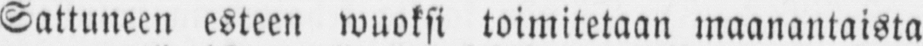Sattuneen esteen wuoksi toimitetaan maanantaista
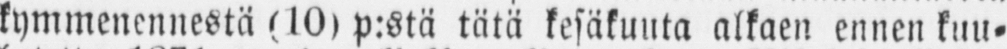kymmenennestä (10) p:stä tätä kesäkuuta alkaen ennen kuu-
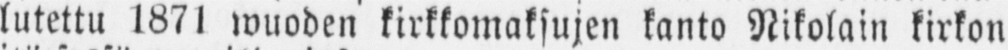lutettu 1871 wuoden kirkkomaksujen kanto Nikolain kirkon
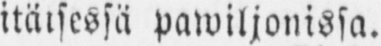itäisessä pawiljonissa.
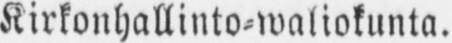Kirkonhallinto-waliokunta.
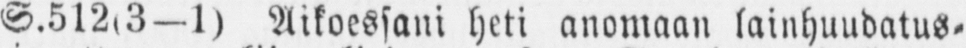S.512(3—1) Aikoessani heti anomaan lainhuudatus-
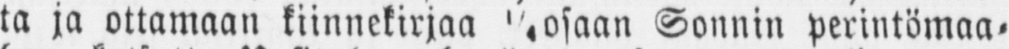ta ja ottamaan kiinnekirjaa ¼osaan Sonnin perintömaa-
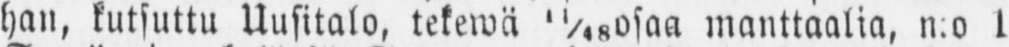han, kutsuttu Uusitalo, tekewä 11/48osaa manttaalia, n:o 1
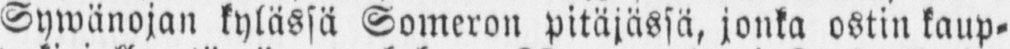Sywänojan kylässä Someron pitäjässä, jonka ostin kaup-
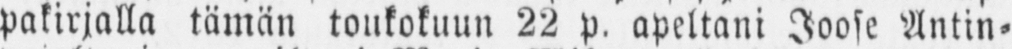pakirjalla tämän toukokuun 22 p. apeltani Joose Antin-
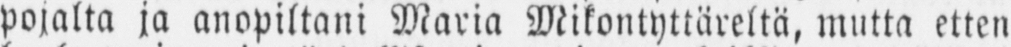pojalta ja anopiltani Maria Mikontyttäreltä, mutta etten
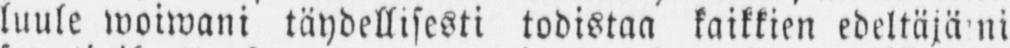luule woiwani täydellisesti todistaa kaikkien edeltäjä’ni
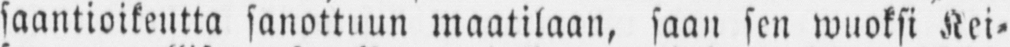saantioikeutta sanottuun maatilaan, saan sen wuoksi Kei-
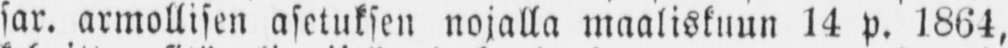sar. armollisen asetuksen nojalla maaliskuun 14 p. 1864,
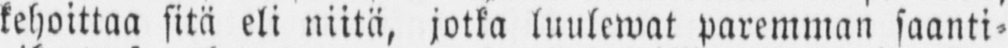kehoittaa sitä eli niitä, jotka luulewat paremman saanti-
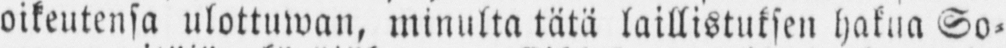oikeutensa ulottuwan, minulta tätä laillistuksen hakua So-
